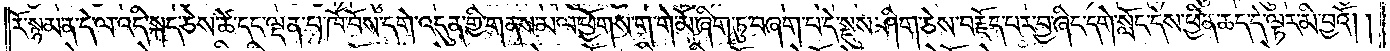རོ་སྙམ་ན་དེ་ལ་འདི་སྐད་ཅེས་ཚེ་དང་ལྡན་པ་ཁོ་བོས་དགེ་འདུན་གྱི་གནས་མལ་ཕྱོགས་ག་གེ་མོ་ཞིག་ཏུ་བཞག་པ་དེ་སྡུས་ཤིག་ཅེས་བརྗོད་པར་བྱ་ཞིང་དགེ་སློང་དེས་ཕྱིན་ཆད་དེ་ལྟར་མི་བྱའོ། །
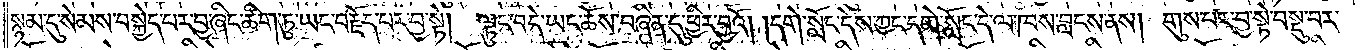སྙམ་དུ་སེམས་བསྐྱེད་པར་བྱ་ཞིང་ཚིག་ཏུ་ཡང་བརྗོད་པར་བྱ་སྟེ། ལྟུང་བ་དེ་ཡང་ཆོས་བཞིན་དུ་ཕྱིར་བྱའོ། །དགེ་སློང་དེས་ཀྱང་དགེ་སློང་དེ་ལ་ཁས་བླངས་ནས། གུས་པར་བྱ་སྟེ་བསྡུ་བར་
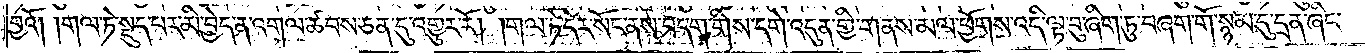བྱའོ། །གལ་ཏེ་སྡུད་པར་མི་བྱེད་ན་འགལ་ཚབས་ཅན་དུ་འགྱུར་རོ། །གལ་ཏེ་དེར་སོང་ནས་བདག་གིས་དགེ་འདུན་གྱི་གནས་མལ་ཕྱོགས་འདི་ལྟ་བུ་ཞིག་ཏུ་བཞག་གོ་སྙམ་དུ་དྲན་ཞིང་
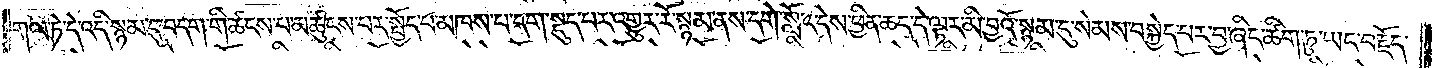གལ་ཏེ་དེ་འདི་སྙམ་དུ་བདག་གི་ཚངས་པ་མཚུངས་པར་སྤྱོད་པ་མཁས་པ་དག་སྡུད་པར་འགྱུར་རོ་སྙམ་ནས་དགེ་སློང་དེས་ཕྱིན་ཆད་དེ་ལྟར་མི་བྱའོ་སྙམ་དུ་སེམས་བསྐྱེད་པར་བྱ་ཞིང་ཚིག་ཏུ་ཡང་བརྗོད་
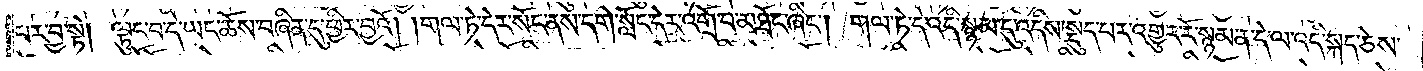པར་བྱ་སྟེ། ལྟུང་བ་དེ་ཡང་ཆོས་བཞིན་དུ་ཕྱིར་བྱའོ། །གལ་ཏེ་དེར་སོང་ནས་དགེ་སློང་དེར་འགྲོ་བ་མཐོང་ཞིང༌། གལ་ཏེ་དེ་འདི་སྙམ་དུ་འདིས་སྡུད་པར་འགྱུར་རོ་སྙམ་ན་དེ་ལ་འདི་སྐད་ཅེས་
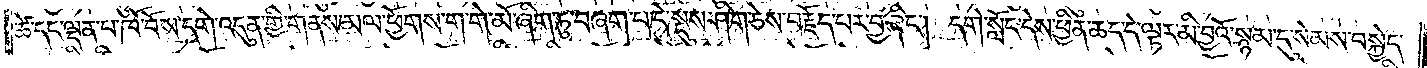ཚེ་དང་ལྡན་པ་ཁོ་བོས་དགེ་འདུན་གྱི་གནས་མལ་ཕྱོགས་ག་གེ་མོ་ཞིག་ཏུ་བཞག་པ་དེ་སྡུས་ཤིག་ཅེས་བརྗོད་པར་བྱ་ཞིང༌། དགེ་སློང་དེས་ཕྱིན་ཆད་དེ་ལྟར་མི་བྱའོ་སྙམ་དུ་སེམས་བསྐྱེད་
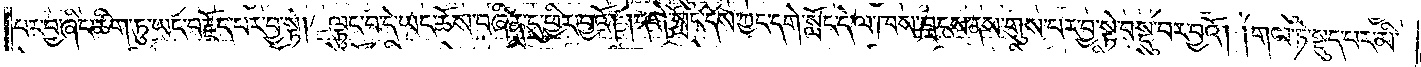པར་བྱ་ཞིང་ཚིག་ཏུ་ཡང་བརྗོད་པར་བྱ་སྟེ། ལྟུང་བ་དེ་ཡང་ཆོས་བཞིན་དུ་ཕྱིར་བྱའོ། །དགེ་སློང་དེས་ཀྱང་དགེ་སློང་དེ་ལ་ཁས་བླངས་ནས་གུས་པར་བྱ་སྟེ་བསྡུ་བར་བྱའོ། །གལ་ཏེ་སྡུད་པར་མི་
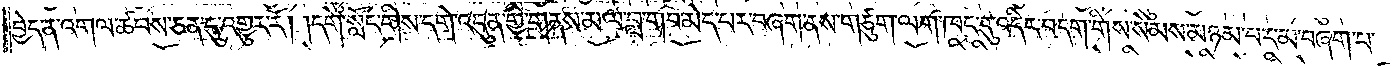བྱེད་ན་འགལ་ཚབས་ཅན་དུ་འགྱུར་རོ། །དགེ་སློང་གིས་དགེ་འདུན་གྱི་གནས་མལ་བླ་གབ་མེད་པར་བཞག་ནས་གཙུག་ལག་ཁང་དུ་འདིར་བདག་གིས་སེམས་མཉམ་པར་མ་བཞག་པ་
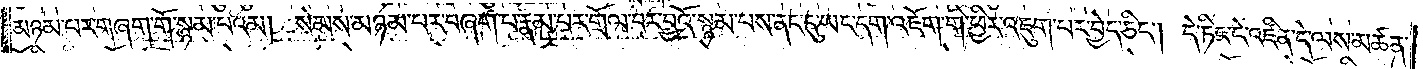མཉམ་པར་གཞག་གོ་སྙམ་པའམ། སེམས་མཉམ་པར་བཞག་པ་རྣམ་པར་གྲོལ་བར་བྱའོ་སྙམ་པས་ནང་དུ་ཡང་དག་འཇོག་གི་ཕྱིར་འཇུག་པར་བྱེད་ཅིང༌། དེ་ཏིང་ངེ་འཛིན་དེ་ལས་མཚན་
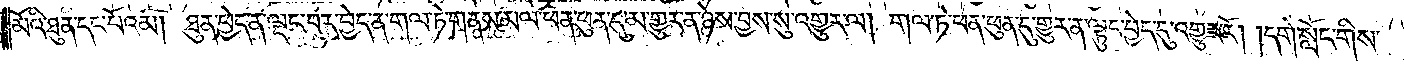མོའི་ཐུན་དང་པོའམ། ཐུན་ཕྱེད་ན་ལྡང་བར་བྱེད་ན་གལ་ཏེ་གནས་མལ་ཕན་ཕུན་དུ་མ་གྱུར་ན་ཉེས་བྱས་སུ་འགྱུར་ལ། གལ་ཏེ་ཕན་ཕུན་དུ་གྱུར་ན་ལྟུང་བྱེད་དུ་འགྱུར་རོ། །དགེ་སློང་གིས་
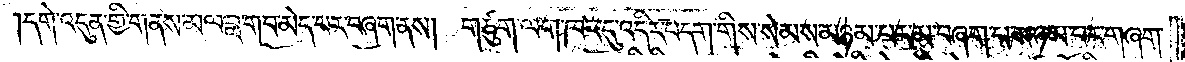དགེ་འདུན་གྱི་གནས་མལ་བླ་གབ་མེད་པར་བཞག་ནས། གཙུག་ལག་ཁང་དུ་འདིར་བདག་གིས་སེམས་མཉམ་པར་མ་བཞག་པ་མཉམ་པར་གཞག་
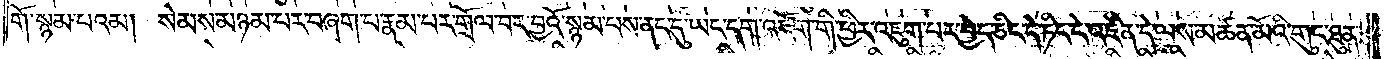གོ་སྙམ་པའམ། སེམས་མཉམ་པར་བཞག་པ་རྣམ་པར་གྲོལ་བར་བྱའོ་སྙམ་པས་ནང་དུ་ཡང་དག་འཇོག་གི་ཕྱིར་འཇུག་པར་བྱེད་ཅིང་དེ་ཏིང་ངེ་འཛིན་དེ་ལས་མཚན་མོའི་གུང་ཐུན་
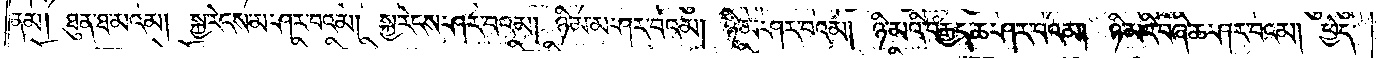ནམ། ཐུན་ཐ་མའམ། སྐྱ་རེངས་མ་ཤར་བའམ། སྐྱ་རེངས་ཤར་བའམ། ཉི་མ་མ་ཤར་བའམ། ཉི་མ་ཤར་བའམ། ཉི་མའི་བརྒྱད་ཆ་ཤར་བའམ། ཉི་མའི་བཞི་ཆ་ཤར་བའམ། ཕྱེད་
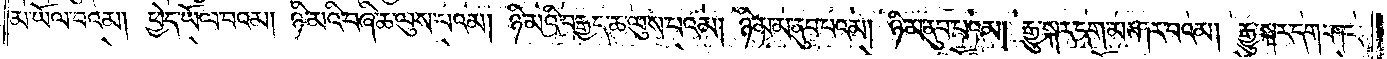མ་ཡོལ་བའམ། ཕྱེད་ཡོལ་བའམ། ཉི་མའི་བཞི་ཆ་ལུས་པའམ། ཉི་མའི་བརྒྱད་ཆ་ལུས་པའམ། ཉི་མ་མ་ནུབ་པའམ། ཉི་མ་ནུབ་པའམ། རྒྱུ་སྐར་དག་མ་ཤར་བའམ། རྒྱུ་སྐར་དག་ཤར་
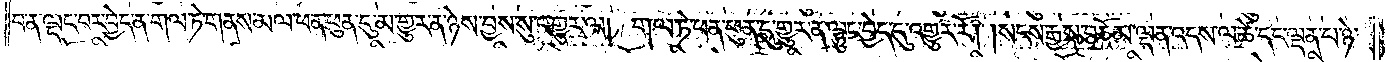བ་ན་ལྡང་བར་བྱེད་ན་གལ་ཏེ་གནས་མལ་ཕན་ཕུན་དུ་མ་གྱུར་ན་ཉེས་བྱས་སུ་འགྱུར་ལ། གལ་ཏེ་ཕན་ཕུན་དུ་གྱུར་ན་ལྟུང་བྱེད་དུ་འགྱུར་རོ། །སངས་རྒྱས་བཅོམ་ལྡན་འདས་ལ་ཚེ་དང་ལྡན་པ་ཉེ་
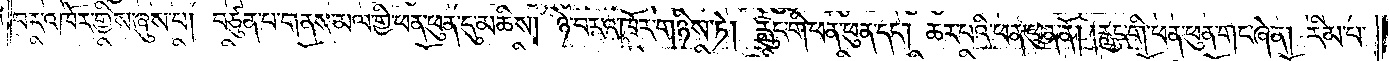བར་འཁོར་གྱིས་ཞུས་པ། བཙུན་པ་གནས་མལ་གྱི་ཕན་ཕུན་དུ་མཆིས། ཉེ་བར་འཁོར་གཉིས་ཏེ། རླུང་གི་ཕན་ཕུན་དང༌། ཆར་པའི་ཕན་ཕུན་ནོ། །རླུང་གི་ཕན་ཕུན་གང་ཞེ་ན། རིམ་པ་
